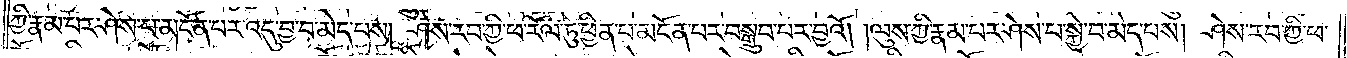ཀྱི་རྣམ་པར་ཤེས་པ་མངོན་པར་འདུ་བྱ་བ་མེད་པས། ཤེས་རབ་ཀྱི་ཕ་རོལ་ཏུ་ཕྱིན་པ་མངོན་པར་བསྒྲུབ་པར་བྱའོ། །ལུས་ཀྱི་རྣམ་པར་ཤེས་པ་སྐྱེ་བ་མེད་པས། ཤེས་རབ་ཀྱི་ཕ་
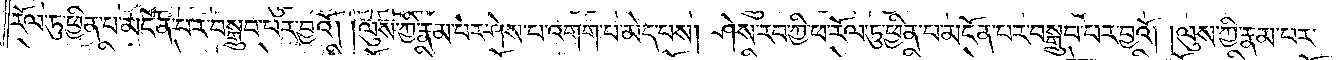རོལ་ཏུ་ཕྱིན་པ་མངོན་པར་བསྒྲུབ་པར་བྱའོ། །ལུས་ཀྱི་རྣམ་པར་ཤེས་པ་འགག་པ་མེད་པས། ཤེས་རབ་ཀྱི་ཕ་རོལ་ཏུ་ཕྱིན་པ་མངོན་པར་བསྒྲུབ་པར་བྱའོ། །ལུས་ཀྱི་རྣམ་པར་
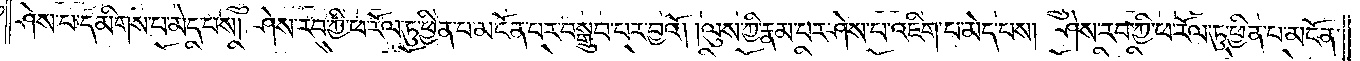ཤེས་པ་དམིགས་པ་མེད་པས། ཤེས་རབ་ཀྱི་ཕ་རོལ་ཏུ་ཕྱིན་པ་མངོན་པར་བསྒྲུབ་པར་བྱའོ། །ལུས་ཀྱི་རྣམ་པར་ཤེས་པ་འཇིག་པ་མེད་པས། ཤེས་རབ་ཀྱི་ཕ་རོལ་ཏུ་ཕྱིན་པ་མངོན་
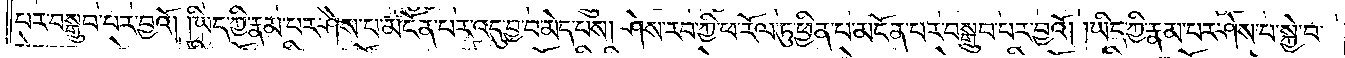པར་བསྒྲུབ་པར་བྱའོ། །ཡིད་ཀྱི་རྣམ་པར་ཤེས་པ་མངོན་པར་འདུ་བྱ་བ་མེད་པས། ཤེས་རབ་ཀྱི་ཕ་རོལ་ཏུ་ཕྱིན་པ་མངོན་པར་བསྒྲུབ་པར་བྱའོ། །ཡིད་ཀྱི་རྣམ་པར་ཤེས་པ་སྐྱེ་བ་
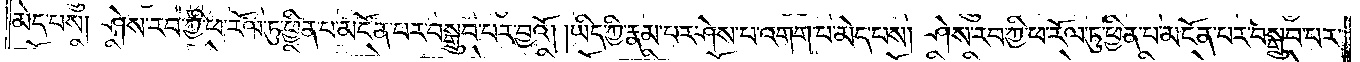མེད་པས། ཤེས་རབ་ཀྱི་ཕ་རོལ་ཏུ་ཕྱིན་པ་མངོན་པར་བསྒྲུབ་པར་བྱའོ། །ཡིད་ཀྱི་རྣམ་པར་ཤེས་པ་འགག་པ་མེད་པས། ཤེས་རབ་ཀྱི་ཕ་རོལ་ཏུ་ཕྱིན་པ་མངོན་པར་བསྒྲུབ་པར་
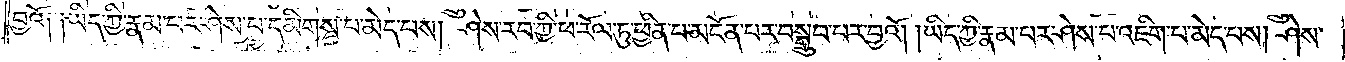བྱའོ༑ ༑ཡིད་ཀྱི་རྣམ་པར་ཤེས་པ་དམིགས་པ་མེད་པས། ཤེས་རབ་ཀྱི་ཕ་རོལ་ཏུ་ཕྱིན་པ་མངོན་པར་བསྒྲུབ་པར་བྱའོ། །ཡིད་ཀྱི་རྣམ་པར་ཤེས་པ་འཇིག་པ་མེད་པས། ཤེས་
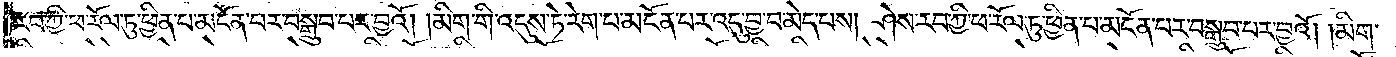རབ་ཀྱི་ཕ་རོལ་ཏུ་ཕྱིན་པ་མངོན་པར་བསྒྲུབ་པར་བྱའོ། །མིག་གི་འདུས་ཏེ་རེག་པ་མངོན་པར་འདུ་བྱ་བ་མེད་པས། ཤེས་རབ་ཀྱི་ཕ་རོལ་ཏུ་ཕྱིན་པ་མངོན་པར་བསྒྲུབ་པར་བྱའོ། །མིག་
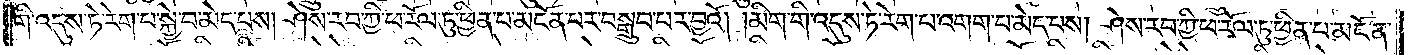གི་འདུས་ཏེ་རེག་པ་སྐྱེ་བ་མེད་པས། ཤེས་རབ་ཀྱི་ཕ་རོལ་ཏུ་ཕྱིན་པ་མངོན་པར་བསྒྲུབ་པར་བྱའོ། །མིག་གི་འདུས་ཏེ་རེག་པ་འགག་པ་མེད་པས། ཤེས་རབ་ཀྱི་ཕ་རོལ་ཏུ་ཕྱིན་པ་མངོན་
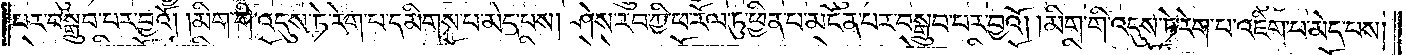པར་བསྒྲུབ་པར་བྱའོ། །མིག་གི་འདུས་ཏེ་རེག་པ་དམིགས་པ་མེད་པས། ཤེས་རབ་ཀྱི་ཕ་རོལ་ཏུ་ཕྱིན་པ་མངོན་པར་བསྒྲུབ་པར་བྱའོ། །མིག་གི་འདུས་ཏེ་རེག་པ་འཇིག་པ་མེད་པས།
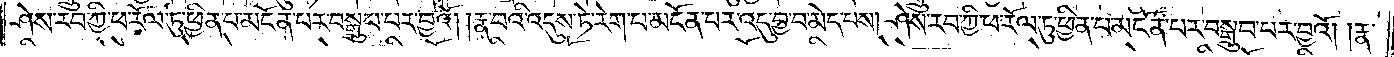ཤེས་རབ་ཀྱི་ཕ་རོལ་ཏུ་ཕྱིན་པ་མངོན་པར་བསྒྲུབ་པར་བྱའོ། །རྣ་བའི་འདུས་ཏེ་རེག་པ་མངོན་པར་འདུ་བྱ་བ་མེད་པས། ཤེས་རབ་ཀྱི་ཕ་རོལ་ཏུ་ཕྱིན་པ་མངོན་པར་བསྒྲུབ་པར་བྱའོ། །རྣ་
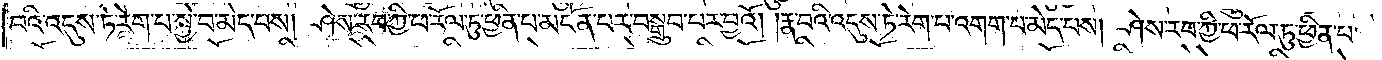བའི་འདུས་ཏེ་རེག་པ་སྐྱེ་བ་མེད་པས། ཤེས་རབ་ཀྱི་ཕ་རོལ་ཏུ་ཕྱིན་པ་མངོན་པར་བསྒྲུབ་པར་བྱའོ། །རྣ་བའི་འདུས་ཏེ་རེག་པ་འགག་པ་མེད་པས། ཤེས་རབ་ཀྱི་ཕ་རོལ་ཏུ་ཕྱིན་པ་
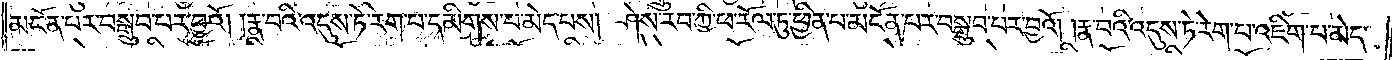མངོན་པར་བསྒྲུབ་པར་བྱའོ། །རྣ་བའི་འདུས་ཏེ་རེག་པ་དམིགས་པ་མེད་པས། ཤེས་རབ་ཀྱི་ཕ་རོལ་ཏུ་ཕྱིན་པ་མངོན་པར་བསྒྲུབ་པར་བྱའོ། །རྣ་བའི་འདུས་ཏེ་རེག་པ་འཇིག་པ་མེད་
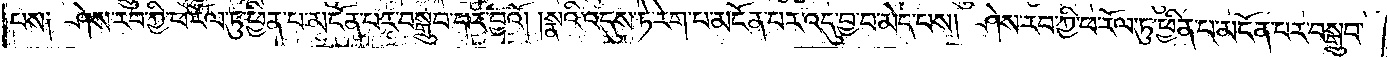པས༑ ཤེས་རབ་ཀྱི་ཕ་རོལ་ཏུ་ཕྱིན་པ་མངོན་པར་བསྒྲུབ་པར་བྱའོ། །སྣའི་འདུས་ཏེ་རེག་པ་མངོན་པར་འདུ་བྱ་བ་མེད་པས། ཤེས་རབ་ཀྱི་ཕ་རོལ་ཏུ་ཕྱིན་པ་མངོན་པར་བསྒྲུབ་
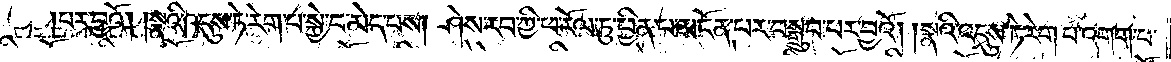པར་བྱའོ། །སྣའི་འདུས་ཏེ་རེག་པ་སྐྱེ་བ་མེད་པས། ཤེས་རབ་ཀྱི་ཕ་རོལ་ཏུ་ཕྱིན་པ་མངོན་པར་བསྒྲུབ་པར་བྱའོ། །སྣའི་འདུས་ཏེ་རེག་པ་འགག་པ་
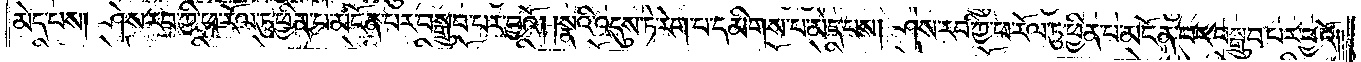མེད་པས། ཤེས་རབ་ཀྱི་ཕ་རོལ་ཏུ་ཕྱིན་པ་མངོན་པར་བསྒྲུབ་པར་བྱའོ། །སྣའི་འདུས་ཏེ་རེག་པ་དམིགས་པ་མེད་པས། ཤེས་རབ་ཀྱི་ཕ་རོལ་ཏུ་ཕྱིན་པ་མངོན་པར་བསྒྲུབ་པར་བྱའོ། །
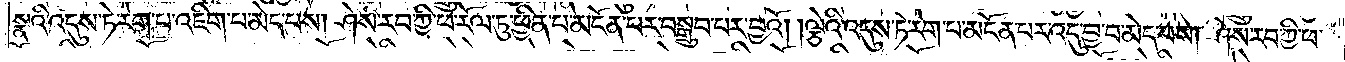སྣའི་འདུས་ཏེ་རེག་པ་འཇིག་པ་མེད་པས། ཤེས་རབ་ཀྱི་ཕ་རོལ་ཏུ་ཕྱིན་པ་མངོན་པར་བསྒྲུབ་པར་བྱའོ། །ལྕེའི་འདུས་ཏེ་རེག་པ་མངོན་པར་འདུ་བྱ་བ་མེད་པས། ཤེས་རབ་ཀྱི་ཕ་
